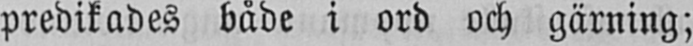predikades både i ord och gärning;
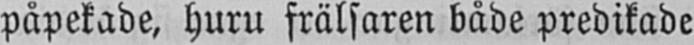påpekade, huru frälsaren både predikade
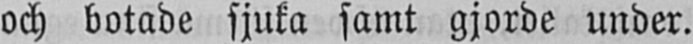och botade sjuka samt gjorde under.
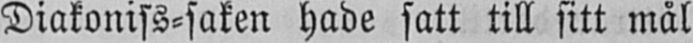Diakoniss-saken hade satt till sitt mål
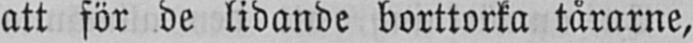att för de lidande borttorka tårarne,
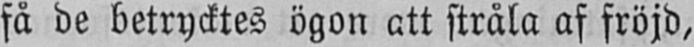få de betrycktes ögon att stråla af fröjd,
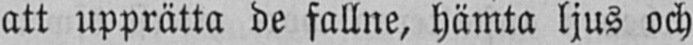att upprätta de fallne, hämta ljus och
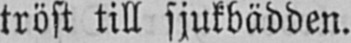tröst till sjukbädden.
